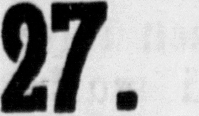No: 27.
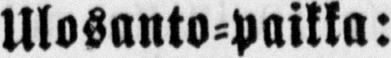Ulosanto-paikka:
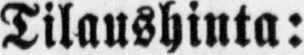Tilaushinta:
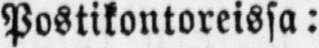Postikontoreissa:
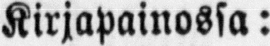Kirjapainossa:
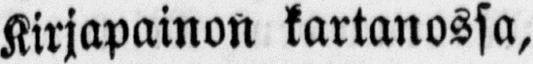Kirjapainon kartanossa.
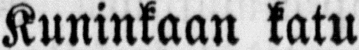Kuninkaan katu
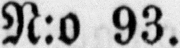N:o 93.
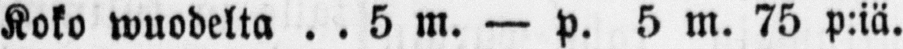Koko wuodelta . . 5 m. — p. 5 m. 75 p:iä.
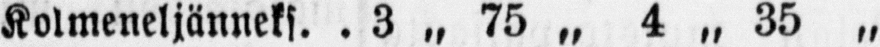Kolmeneljänneks. . 3 „ 75 „ 4 „ 35 „
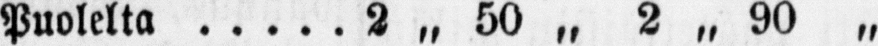Puolelta . . . . . 2 „ 50 „ 2 „ 90 „
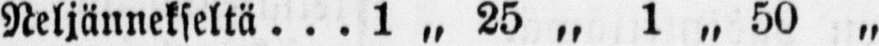Neljännekseltä . . . 1 „ 25 „ 1 „ 50 „
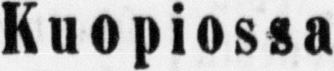Kuopissa
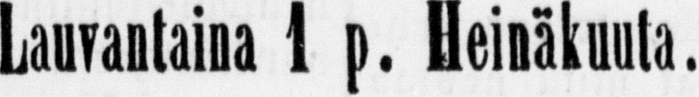Lauvataina 1 p. Heinäkuuta.
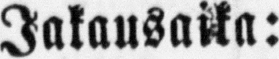Jakausaika:
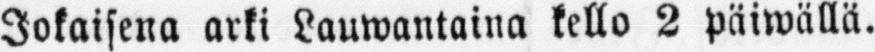Jokaisena arki Lauwantaina kello 2 päiwällä.
